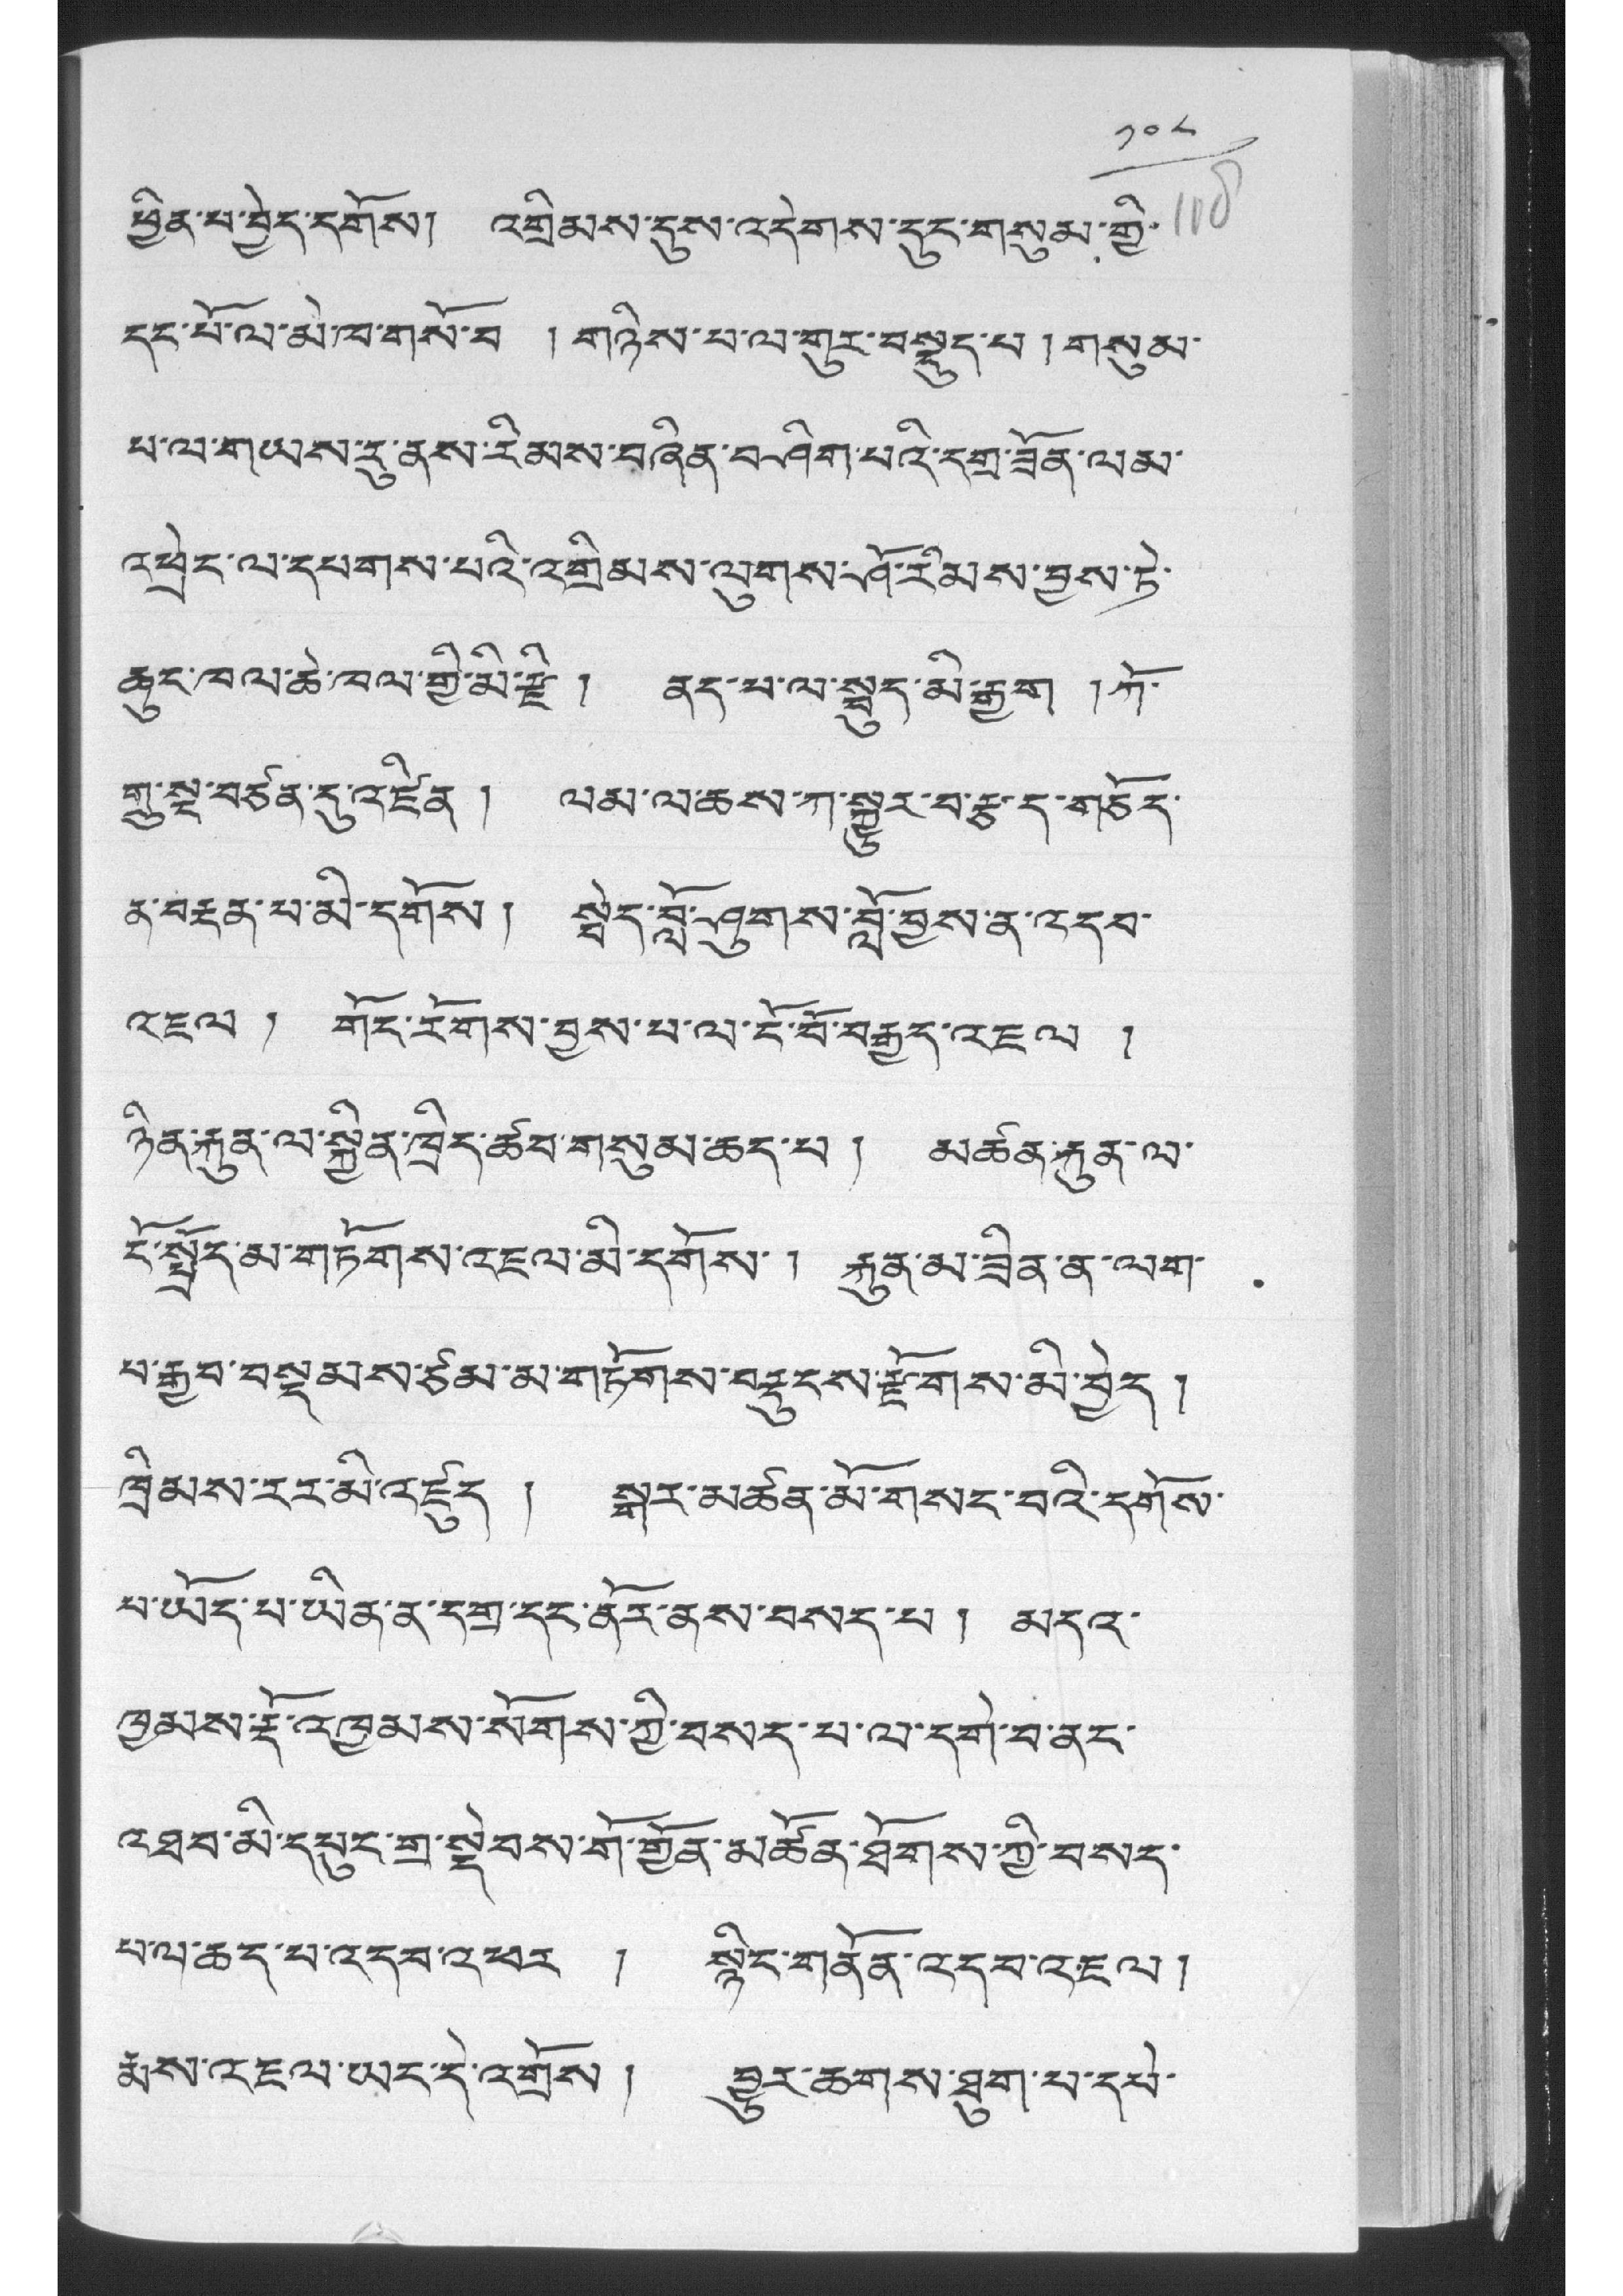༡༠༨
ཕྱིན་པ་བྱེད་དགོས། འགྲིམས་དུས་འདེགས་དུང་གསུམ་གྱི་
དང་པོ་ལ་མེ་ཁ་གསོ་བ ། གཉིས་པ་ལ་གུར་བསྡུད་པ ། གསུམ་
པ་ལ་གཡས་རུ་ནས་རིམས་བཞིན་བཤིག་པའི་དགྲ་ཟོན་ལམ་
འཕྲེང་ལ་དཔགས་པའི་འགྲིམས་ལུགས་ཤོ་རིམས་བྱས་ཏེ་
ཆུང་ཁལ་ཆེ་ཁལ་གྱི་མི་རྫི ། ནད་པ་ལ་སྦུད་མི་རྒྱུག ། ཀོ་
གྲུ་སྔ་བཙན་དུ་འཛིན ། ལམ་ལ་ཆས་ཀ་སྐྱུར་བ་རྩད་གཅོད་
ན་བརྔན་པ་མི་དགོས། སྦེད་བློ་ཤུགས་བློ་བྱས་ན་འདབ་
འཇལ ། གོང་རོགས་བྱས་པ་ལ་ངོ་བོ་བརྒྱད་འཇལ །
ཉིན་རྐུན་ལ་སྐྱིན་ཁྲིད་ཚབ་གསུམ་ཆད་པ ། མཚན་རྐུན་ལ་
ངོ་སྤྲོད་མ་གཏོགས་འཇལ་མི་དགོས་། རྐུན་མ་ཟིན་ན་ལག་
པ་རྒྱབ་བསྡམས་ཙམ་མ་གཏོགས་བརྡུངས་རྫོགས་མི་བྱེད །
ཁྲིམས་རར་མི་འཛུད ། སྒར་མཚན་མོ་གསང་བའི་དགོས་
པ་ཡོད་པ་ཡིན་ན་དགྲ་དང་ནོར་ནས་བསད་པ ། མདའ་
ཁྱམས་རྡོ་འཁྱམས་སོགས་ཀྱི་བསད་པ་ལ་དག་བ་ནང་
འཐབ་མི་དཔུང་གྲ་སྡེབས་གོ་གྱོན་མཚོན་ཐོགས་ཀྱི་བསད་
པལ་ཆད་པ་འདབ་འཕར ། སྙིང་གནོན་འདབ་འཇལ །
རྨས་འཇལ་ཡང་དེ་འགྲོས ། བྱུར་ཆགས་ཐུག་པ་དཔེ་
